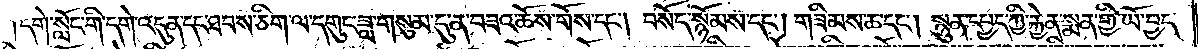དགེ་སློང་གི་དགེ་འདུན་དང་ཐབས་ཅིག་ལ་དགུང་ཟླ་གསུམ་དུ་ན་བཟའ་ཆོས་གོས་དང༌། བསོད་སྙོམས་དང༌། གཟིམས་ཆ་དང༌། སྙུན་དཔྱད་ཀྱི་རྐྱེན་སྨན་གྱི་ཡོ་བྱད་
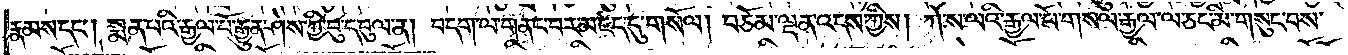རྣམས་དང༌། སྨན་པའི་རྒྱལ་པོ་རྒྱུན་ཤེས་ཀྱི་བུ་དབུལ་ན། བདག་ལ་གནང་བར་མཛད་དུ་གསོལ། བཅོམ་ལྡན་འདས་ཀྱིས། ཀོ་ས་ལའི་རྒྱལ་པོ་གསལ་རྒྱལ་ལ་ཅང་མི་གསུང་བས་
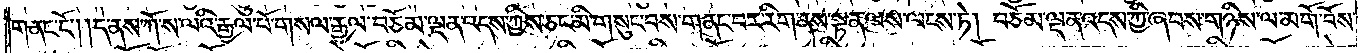གནང་ངོ༌། །དེ་ནས་ཀོ་ས་ལའི་རྒྱལ་པོ་གསལ་རྒྱལ་བཅོམ་ལྡན་འདས་ཀྱིས་ཅང་མི་གསུང་བས་གནང་བར་རིག་ནས་སྟན་ལས་ལངས་ཏེ། བཅོམ་ལྡན་འདས་ཀྱི་ཞབས་གཉིས་ལ་མགོ་བོས་
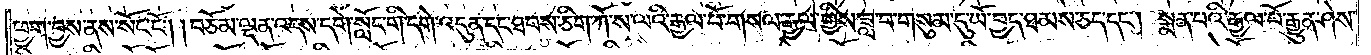ཕྱག་བྱས་ནས་སོང་ངོ༌། །བཅོམ་ལྡན་འདས་དགེ་སློང་གི་དགེ་འདུན་དང་ཐབས་ཅིག་ཀོ་ས་ལའི་རྒྱལ་པོ་གསལ་རྒྱལ་གྱིས་ཟླ་བ་གསུམ་དུ་ཡོ་བྱད་ཐམས་ཅད་དང༌། སྨན་པའི་རྒྱལ་པོ་རྒྱུན་ཤེས་
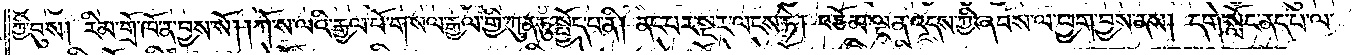ཀྱི་བུས། རིམ་གྲོ་ཁོ་ན་བྱས་སོ། །ཀོ་ས་ལའི་རྒྱལ་པོ་གསལ་རྒྱལ་གྱི་ཀུན་ཏུ་སྤྱོད་པ་ནི། ནང་པར་སྔར་ལངས་ཏེ། བཅོམ་ལྡན་འདས་ཀྱི་ཞབས་ལ་ཕྱག་བྱས་ནས། དགེ་སློང་ནད་པ་ལ་
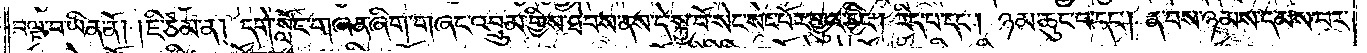བལྟ་བ་ཡིན་ནོ། །ཇི་ཙམ་ན། དགེ་སློང་གཞན་ཞིག་གཞང་འབྲུམ་གྱིས་ཐེབས་ནས་དེ་སྐྱ་བོ་སེང་སེང་པོར་གྱུར་ཅིང༌། རིད་པ་དང༌། ཉམ་ཆུང་བ་དང༌། ན་བས་ཉམས་དམས་པས་
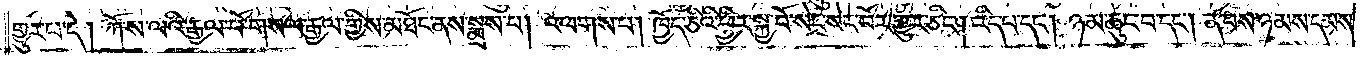གྱུར་པ་དེ། ཀོ་ས་ལའི་རྒྱལ་པོ་གསལ་རྒྱལ་གྱིས་མཐོང་ནས་སྨྲས་པ། འཕགས་པ། ཁྱོད་ཅིའི་ཕྱིར་སྐྱ་བོ་སེང་སེང་པོར་གྱུར་ཅིང༌། རིད་པ་དང༌། ཉམ་ཆུང་བ་དང༌། ན་བས་ཉམས་དམས་
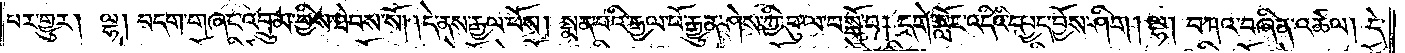པར་གྱུར། ལྷ། བདག་གཞང་འབྲུམ་གྱིས་ཐེབས་སོ། །དེ་ནས་རྒྱལ་པོས། སྨན་པའི་རྒྱལ་པོ་རྒྱུན་ཤེས་ཀྱི་བུ་ལ་བསྒོ་བ། དགེ་སློང་འདིའི་དཔྱད་བྱོས་ཤིག །ལྷ། བཀའ་བཞིན་འཚལ། དེ་
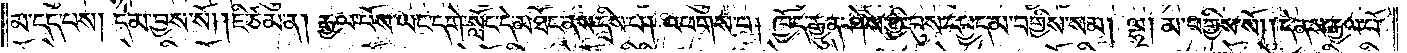མ་དད་པས། དེ་མ་བྱས་སོ། །ཇི་ཙམ་ན། རྒྱལ་པོས་ཡང་དགེ་སློང་དེ་མཐོང་ནས་དྲིས་པ། འཕགས་པ། ཁྱོད་རྒྱུན་ཤེས་ཀྱི་བུས་དཔྱད་མ་བགྱིས་སམ། ལྷ། མ་བགྱིས་སོ། །དེ་ནས་རྒྱལ་པོ་
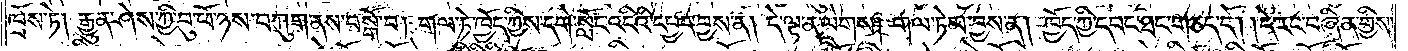ཁྲོས་ཏེ། རྒྱུན་ཤེས་ཀྱི་བུ་ཕོ་ཉས་བཀུག་ནས་བསྒོ་བ། གལ་ཏེ་ཁྱོད་ཀྱིས་དགེ་སློང་འདིའི་དཔྱད་བྱས་ན། དེ་ལྟ་ན་ལེགས། གལ་ཏེ་མ་བྱས་ན། ཁྱོད་ཀྱི་དབང་ཐང་གཅད་དོ། །དེ་རང་བཞིན་གྱིས་
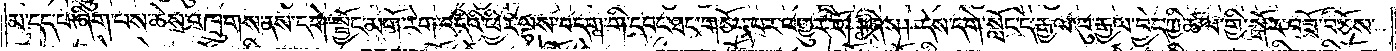མ་དད་པ་ཞིག་པས་ཆེས་འཁྲུགས་ནས་དགེ་སྦྱོང་མགོ་རེག་འདིའི་ཕྱིར་ལྷས་བདག་གི་དབང་ཐང་གཅོད་པར་འགྱུར་རོ། །ཞེས། དེས་དགེ་སློང་དེ་རྒྱལ་བུ་རྒྱལ་བྱེད་ཀྱི་ཚལ་གྱི་སྒོར་བཟོ་བཅོས་
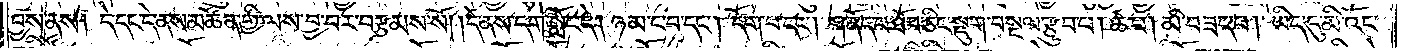བྱས་ནས། དེ་དང་དེ་ནས་མཚོན་གྱི་ལས་བྱ་བར་བརྩམས་སོ། །དེ་ནས་དགེ་སློང་དེ། ཉམ་ང་བ་དང༌། དོག་པ་དང༌། གནོད་པ་ཐོབ་ཅིང་སྡུག་བསྔལ་རྩུབ་པ། ཚ་བ། མི་བཟད་པ། ཡིད་དུ་མི་འོང་
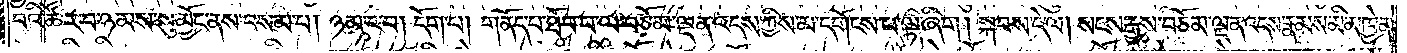བའི་ཚོར་བ་ཉམས་སུ་མྱོང་ནས་བསམ་པ། ཉམ་ང་བ། དོག་པ། གནོད་པ་ཐོབ་པ་ལ་བཅོམ་ལྡན་འདས་ཀྱིས་མ་དགོངས་པ་ལྟ་ཞིག ། སྐབས་དེ་ལ། སངས་རྒྱས་བཅོམ་ལྡན་འདས་རྣམས་མི་མཁྱེན་
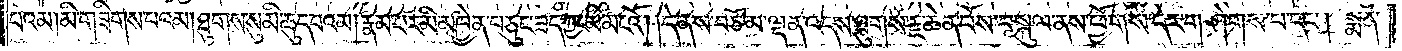པའམ། མི་གཟིགས་པའམ། ཐུགས་སུ་མི་ཆུད་པའམ། རྣམ་པར་མི་མཁྱེན་པ་ཅུང་ཟད་ཀྱང་མི་མངའོ། །དེ་ནས་བཅོམ་ལྡན་འདས་ཐུགས་རྗེ་ཆེན་པོས་བསྐུལ་ནས་ཕྱོགས་དེར་གཤེགས་པ་དང༌། སྨན་
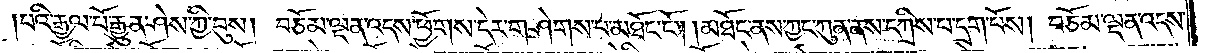པའི་རྒྱལ་པོ་རྒྱུན་ཤེས་ཀྱི་བུས། བཅོམ་ལྡན་འདས་ཕྱོགས་དེར་གཤེགས་པ་མཐོང་ངོ༌། །མཐོང་ནས་ཀྱང་ཀུན་ནས་དཀྲིས་པ་དྲག་པོས། བཅོམ་ལྡན་འདས་
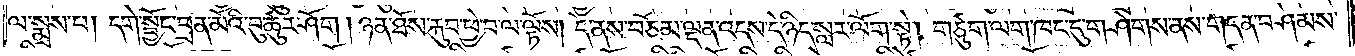ལ་སྨྲས་པ། དགེ་སྦྱོང་བྲན་མོའི་བུ་ཚུར་ཤོག །ཉན་ཐོས་རྐུབ་ཕྱེ་བ་ལྟོས། དེ་ནས་བཅོམ་ལྡན་འདས་དེ་ཉིད་སླར་ལོག་སྟེ། གཙུག་ལག་ཁང་དུ་གཤེགས་ནས་གདན་བཤམས་
